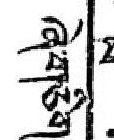ཞེ་གཅིག་
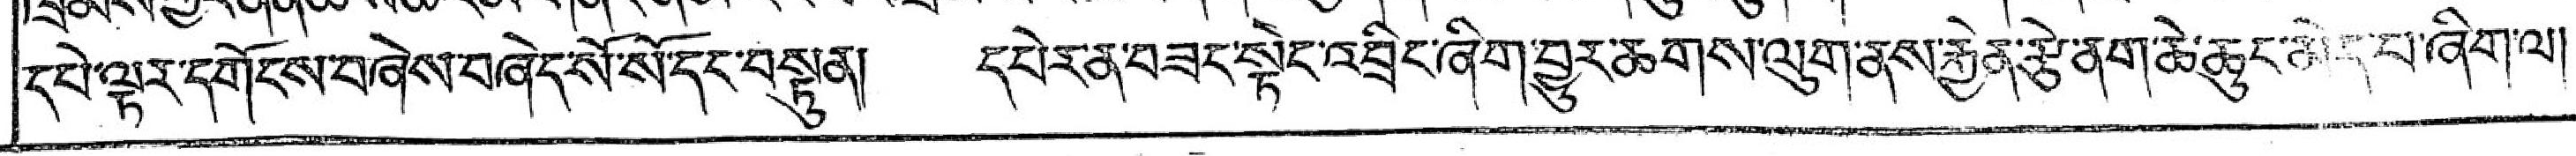དཔེ་ལྟར་དགོངས་བཞེས་བཞེད་སོ་སོ་དང་བསྟུན། དཔེར་ན་བཟང་སྟེང་འབྲིང་ཞིག་བྱུར་ཆགས་ལུག་ནས་རྐྱེན་རྩེ་ནག་ཆེ་ཆུང་མེད་པ་ཞིག་ལ།
